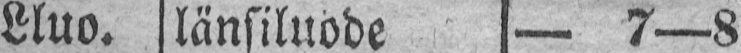Lluo. länsiluode — 7—8
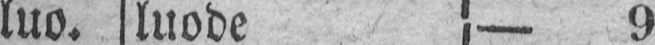luo. luode — 9
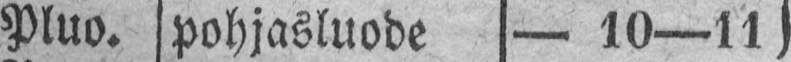Pluo. pohjasluode — 10—11
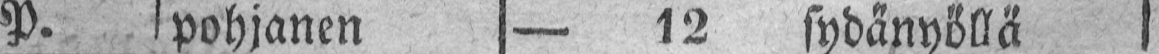P. pohjanen — 12 sydänyöllä
